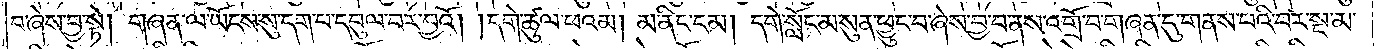བ་ཞེས་བྱ་སྟེ། གཞན་ལ་ཡོངས་སུ་དག་པ་དབུལ་བར་བྱའོ། །དགེ་ཚུལ་ཕའམ། མ་ནིང་ངམ། དགེ་སློང་མ་སུན་ཕྱུང་བ་ཞེས་བྱ་བ་ནས་འགྲོ་བ་གཞན་དུ་གནས་པའི་བར་སྔ་མ་
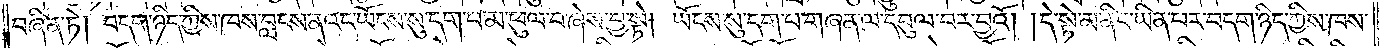བཞིན་ཏེ། བདག་ཉིད་ཀྱིས་ཁས་བླངས་ནའང་ཡོངས་སུ་དག་པ་མ་ཕུལ་བ་ཞེས་བྱ་སྟེ། ཡོངས་སུ་དག་པ་གཞན་ལ་དབུལ་བར་བྱའོ། །དེ་སྟེ་མ་ནིང་ཡིན་པར་བདག་ཉིད་ཀྱིས་ཁས་
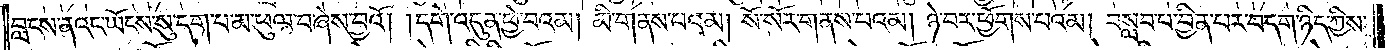བླངས་ནའང་ཡོངས་སུ་དག་པ་མ་ཕུལ་བ་ཞེས་བྱའོ། །དགེ་འདུན་ཕྱེ་བའམ། མི་གནས་པའམ། སོ་སོར་གནས་པའམ། ཉེ་བར་ཕྱོགས་པའམ། བསླབ་པ་བྱིན་པར་བདག་ཉིད་ཀྱིས་
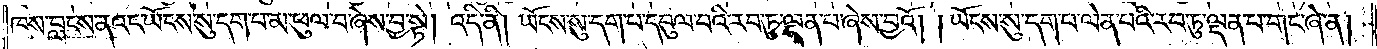ཁས་བླངས་ནའང་ཡོངས་སུ་དག་པ་མ་ཕུལ་བ་ཞེས་བྱ་སྟེ། འདི་ནི། ཡོངས་སུ་དག་པ་དབུལ་བའི་རབ་ཏུ་ལྡན་པ་ཞེས་བྱའོ། །ཡོངས་སུ་དག་པ་ལེན་པའི་རབ་ཏུ་ལྡན་པ་གང་ཞེ་ན།
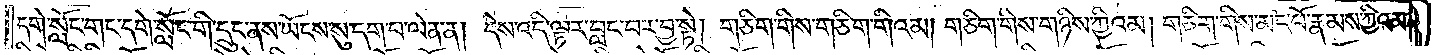དགེ་སློང་གང་དགེ་སློང་གི་དྲུང་ནས་ཡོངས་སུ་དག་པ་ལེན་ན། དེས་འདི་ལྟར་བླང་བར་བྱ་སྟེ། གཅིག་གིས་གཅིག་གིའམ། གཅིག་གིས་གཉིས་ཀྱིའམ། གཅིག་གིས་མང་པོ་རྣམས་ཀྱིའམ།
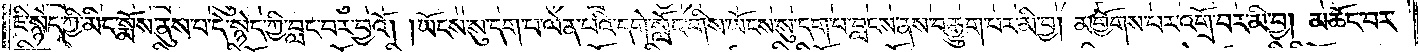ཇི་སྙེད་ཀྱི་མིང་སྨོས་ནུས་པ་དེ་སྙེད་ཀྱི་བླང་བར་བྱའོ། །ཡོངས་སུ་དག་པ་ལེན་པའི་དགེ་སློང་གིས་ཡོངས་སུ་དག་པ་བླངས་ནས་བརྒྱུག་པར་མི་བྱ། མགྱོགས་པར་འགྲོ་བར་མི་བྱ། མཆོང་བར་
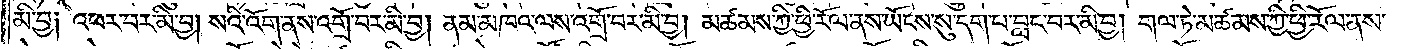མི་བྱ༑ འཕར་བར་མི་བྱ། སའི་འོག་ནས་འགྲོ་བར་མི་བྱ། ནམ་མཁའ་ལས་འགྲོ་བར་མི་བྱ། མཚམས་ཀྱི་ཕྱི་རོལ་ནས་ཡོངས་སུ་དག་པ་བླང་བར་མི་བྱ། གལ་ཏེ་མཚམས་ཀྱི་ཕྱི་རོལ་ནས་
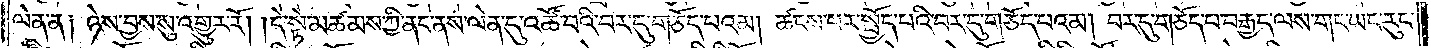ལེན་ན། ཉེས་བྱས་སུ་འགྱུར་རོ། །དེ་སྟེ་མཚམས་ཀྱི་ནང་ནས་ལེན་དུ་འཚོ་བའི་བར་དུ་གཅོད་པའམ། ཚངས་པར་སྤྱོད་པའི་བར་དུ་གཅོད་པའམ། བར་དུ་གཅོད་པ་བརྒྱད་ལས་གང་ཡང་རུང་
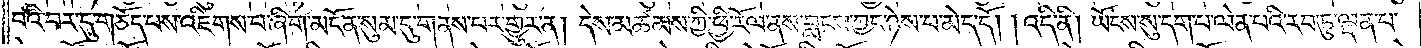བའི་བར་དུ་གཅོད་པས་འཇིགས་པ་ཞིག་མངོན་སུམ་དུ་གནས་པར་གྱུར་ན། དེས་མཚམས་ཀྱི་ཕྱི་རོལ་ནས་བླངས་ཀྱང་ཉེས་པ་མེད་དོ། །འདི་ནི། ཡོངས་སུ་དག་པ་ལེན་པའི་རབ་ཏུ་ལྡན་པ་
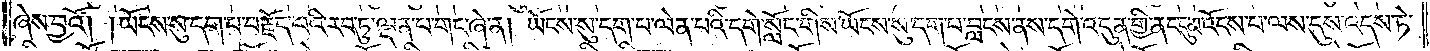ཞེས་བྱའོ། །ཡོངས་སུ་དག་པ་བརྗོད་པའི་བར་དུ་ལྡན་པ་གང་ཞེ་ན། ཡོངས་སུ་དག་པ་ལེན་པའི་དགེ་སློང་གིས་ཡོངས་སུ་དག་པ་བླངས་ནས་དགེ་འདུན་གྱི་ནང་དུ་མ་འོངས་པ་ལས་དུས་འདས་ཏེ་
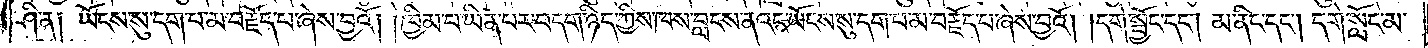ཤི་ན། ཡོངས་སུ་དག་པ་མ་བརྗོད་པ་ཞེས་བྱའོ། །ཁྱིམ་པ་ཡིན་པར་བདག་ཉིད་ཀྱིས་ཁས་བླངས་ནའང་ཡོངས་སུ་དག་པ་མ་བརྗོད་པ་ཞེས་བྱའོ། །དགེ་སྦྱོང་དང༌། མ་ནིང་དང༌། དགེ་སློང་མ་
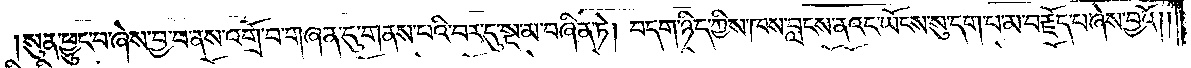སུན་ཕྱུང་བ་ཞེས་བྱ་བ་ནས་འགྲོ་བ་གཞན་དུ་གནས་པའི་བར་དུ་སྔ་མ་བཞིན་ཏེ། བདག་ཉིད་ཀྱིས་ཁས་བླངས་ནའང་ཡོངས་སུ་དག་པ་མ་བརྗོད་པ་ཞེས་བྱའོ། །
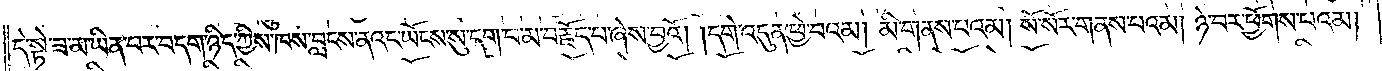དེ་སྟེ་ཟ་མ་ཡིན་པར་བདག་ཉིད་ཀྱིས་ཁས་བླངས་ནའང་ཡོངས་སུ་དག་པ་མ་བརྗོད་པ་ཞེས་བྱའོ། །དགེ་འདུན་ཕྱེ་བའམ། མི་གནས་པའམ། སོ་སོར་གནས་པའམ། ཉེ་བར་ཕྱོགས་པའམ།
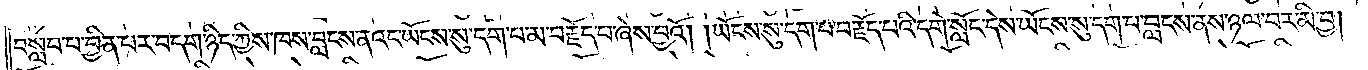བསླབ་པ་བྱིན་པར་བདག་ཉིད་ཀྱིས་ཁས་བླངས་ནའང་ཡོངས་སུ་དག་པ་མ་བརྗོད་པ་ཞེས་བྱའོ། །ཡོངས་སུ་དག་པ་བརྗོད་པའི་དགེ་སློང་དེས་ཡོངས་སུ་དག་པ་བླངས་ནས་ཉལ་བར་མི་བྱ།
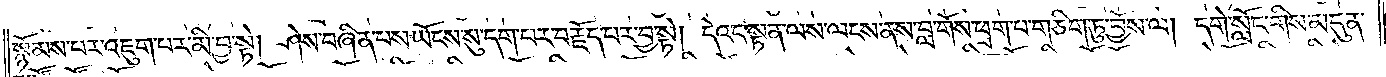སྙོམས་པར་འཇུག་པར་མི་བྱ་སྟེ། ཤེས་བཞིན་པས་ཡོངས་སུ་དག་པར་བརྗོད་པར་བྱ་སྟེ། དེའང་སྟན་ལས་ལངས་ནས་བླ་གོས་ཕྲག་པ་གཅིག་ཏུ་བྱོས་ལ། དགེ་སློང་གིས་མདུན་
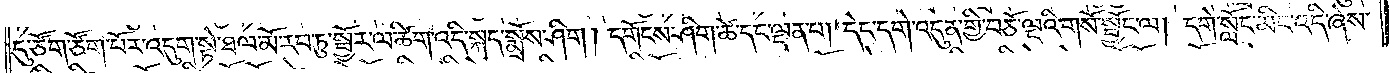དུ་ཙོག་ཙོག་པོར་འདུག་སྟེ་ཐལ་མོ་རབ་ཏུ་སྦྱོར་ལ་ཚིག་འདི་སྐད་སྨྲོས་ཤིག །དགོངས་ཤིག་ཚེ་དང་ལྡན་པ། དེང་དགེ་འདུན་གྱི་བཅོ་ལྔའི་གསོ་སྦྱོང་ལ། དགེ་སློང་མིང་འདི་ཞེས་
